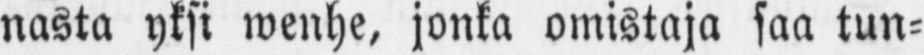nasta yksi wenhe, jonka omistaja saa tun-
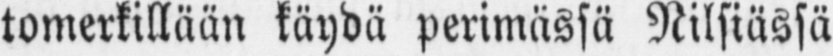tomerkillään käydä perimässä Nilsiässä
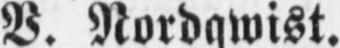V. Nordqwist.
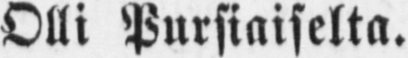Olli Pursiaiselta.
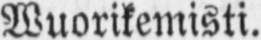Wuorikemisti.
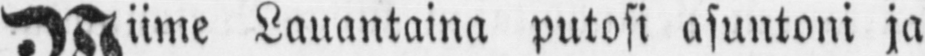Wiime Lauantaina putosi asuntoni ja
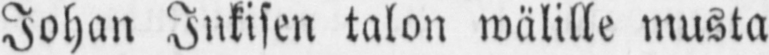Johan Inkisen talon wälille musta
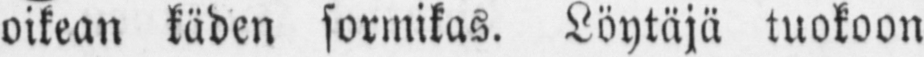oikean käden sormikas. Löytäjä tuokoon
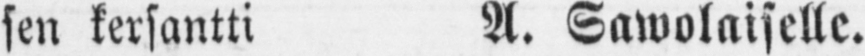sen kersantti A. Sawolaiselle.
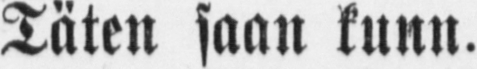Täten saan kunn.
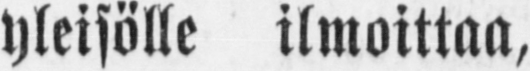yleisölle ilmoittaa,
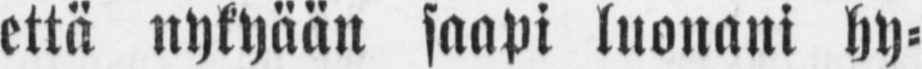että nykyään saapi luonani hy-
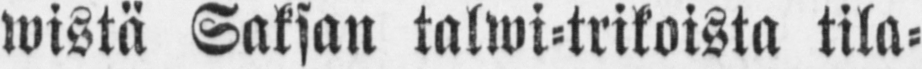wistä Saksan talwi-trikoista tila-
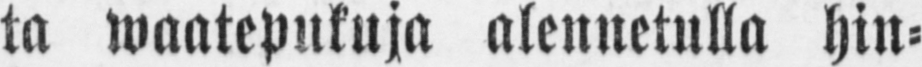ta waatepukuja alennetulla hin-
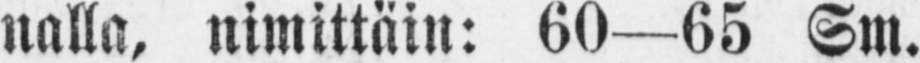nalla, nimittäin: 60—65 Sm.
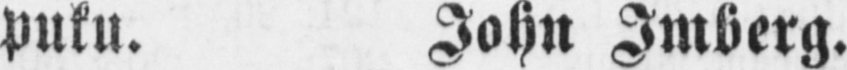puku. John Imberg.
